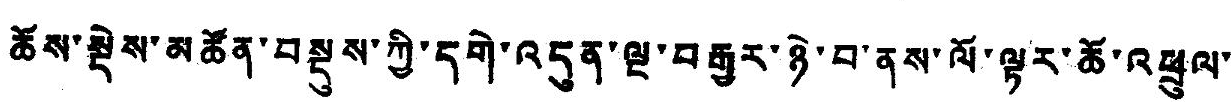ཆོས་སྡེས་མཚོན་བསྡུས་ཀྱི་དགེ་འདུན་ལྔ་བརྒྱར་ཉེ་བ་ནས་ལོ་ལྟར་ཆོ་འཕྲུལ་
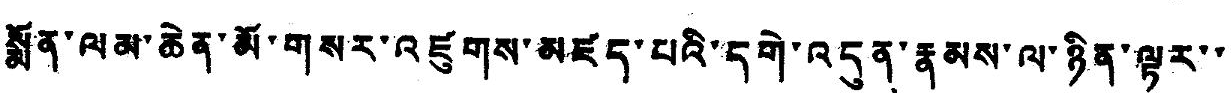སྨོན་ལམ་ཆེན་མོ་གསར་འཛུགས་མཛད་པའི་དགེ་འདུན་རྣམས་ལ་ཉིན་ལྟར་་
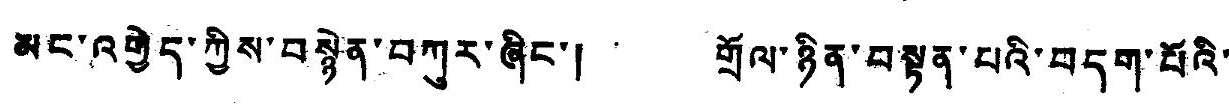མང་འགྱེད་ཀྱིས་བསྙེན་བཀུར་ཞིང་། གྲོལ་ཉིན་བསྟན་པའི་བདག་པོའི་
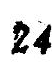24
